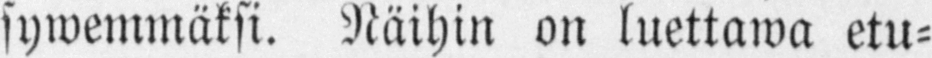sywemmäksi. Näihin on luettawa etu-
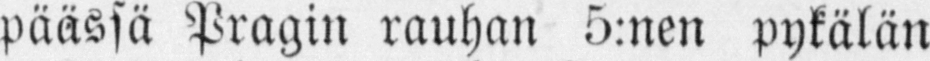päässä Pragin rauhan 5:-nen pykälän
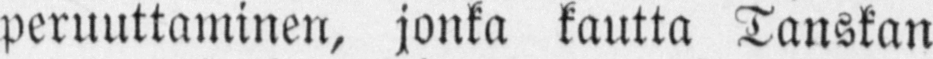peruuttaminen, jonka kautta Tanskan
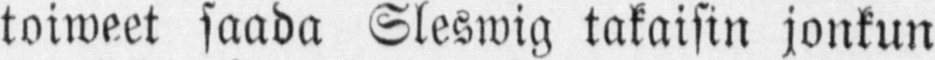toiweet saada Sleswig takaisin jonkun
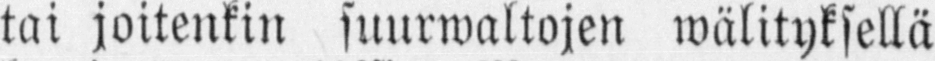tai joitenkin suurwaltojen wälityksellä
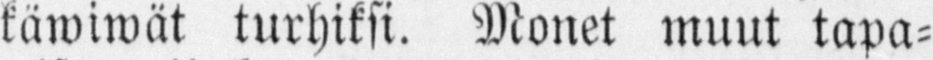käwiwät turhiksi. Monet muut tapa-
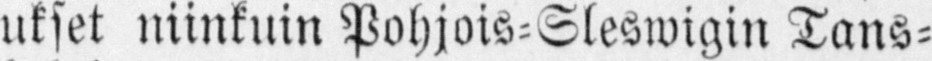ukset niinkuin Pohjois-Sleswigin Tans-
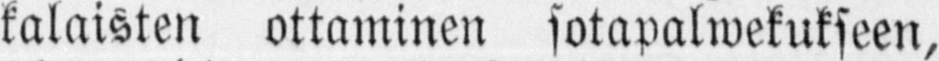kalaisten ottaminen sotapalwekukseen,
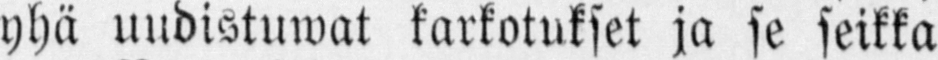yhä uudistuwat karkotukset ja se seikka
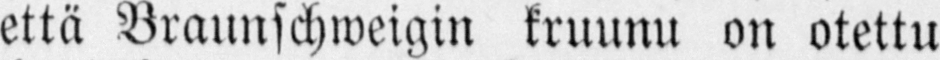että Braunschweigin kruunu on otettu
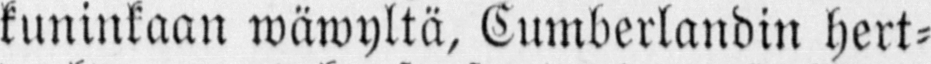kuninkaan wäwyltä, Cumberlandin hert-
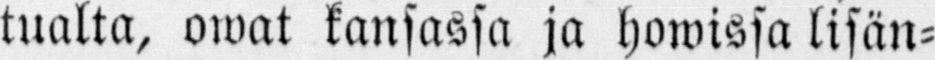tualta, owat kansassa ja howissa lisän-
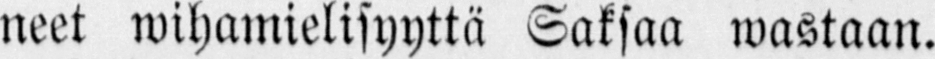neet wihamielisyyttä Saksaa wastaan.
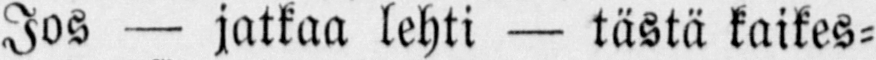Jos — jatkaa lehti — tästä kaikes-
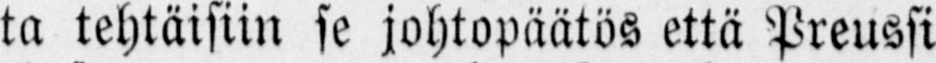ta tehtäisiin se johtopäätös että Preussi
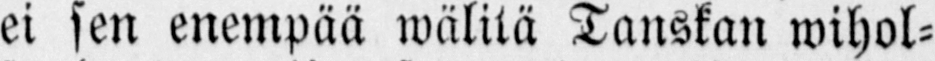ei sen enempää wälilä Tanskan wihol-
